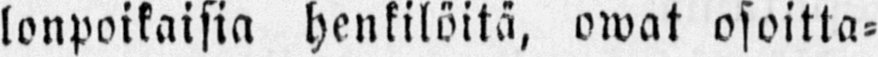lonpoikaisia henkilöitä, owat osoitta-
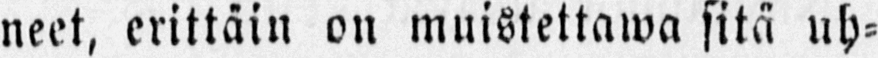neet, erittäin on muistettawa sitä uh-
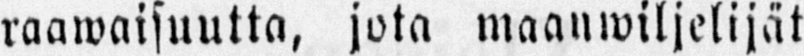raawaisuutta, jota maanwiljelijät
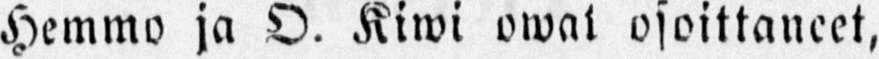Hemmo ja O. Kiwi owat osoittaneet,
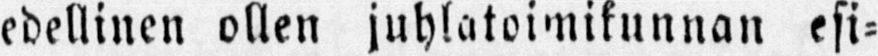edellinen ollen juhlatoimikunnan esi-
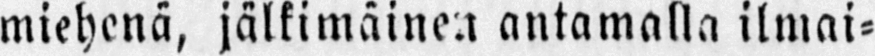miehenä, jälkimäinen antamalla ilmai-
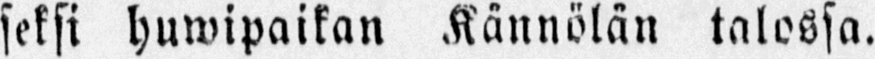seksi huwipaikan Kännölän talossa.
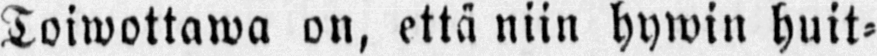Toiwottawa on, että niin hywin huit-
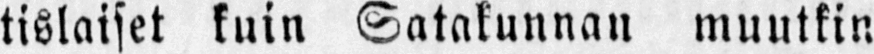tislaiset kuin Satakunnan muutkin
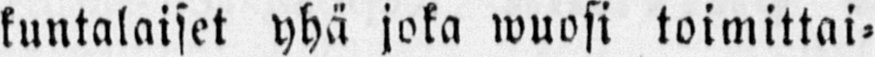kuntalaiset yhä joka wuosi toimittai-
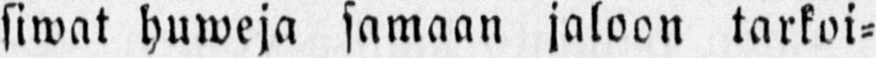siwat huweja samaan jaloon tarkoi-
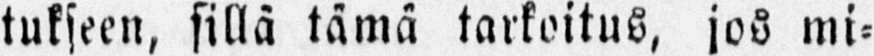tukseen, sillä tämä tarkoitus, jos mi-
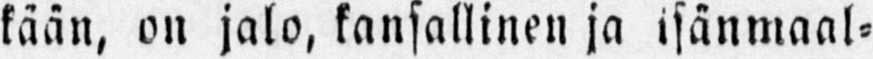kään, on jalo, kansallinen ja isänmaal-
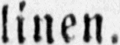linen.
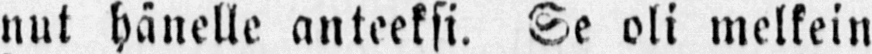nut hänelle anteeksi. Se oli melkein
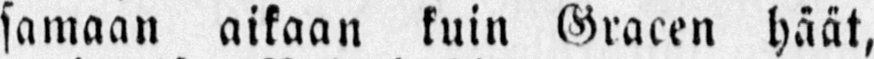samaan aikaan kuin Gracen häät,
